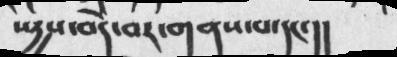སདྱས་བདེ་བར་གནས་པ་དང་།།
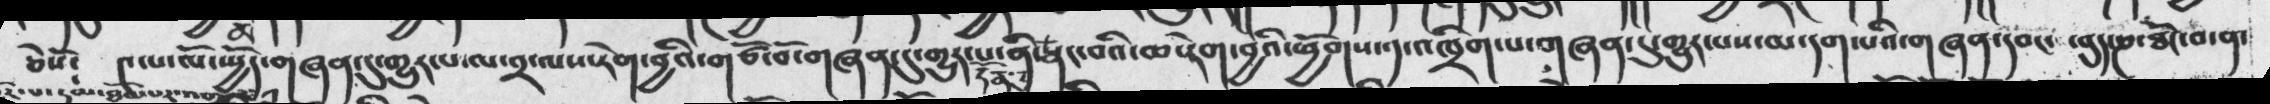ཅེསོ༴  ༤་པ་ལོ་སྤྱོད་གཞན་དུ་གྱུར་པ་ལ་༢་ལས་རེག་བྱའི་གཙོ་བོ་གཞན་དུ་གྱུར་པ་ནི་སྣང་བའི་ཆ་རེག་བྱའི་ཕྱོགས་༡་འཁྲིག་པ་གཞན་དུ་གྱུར་པས་མ་དག་པའི་གཞན་དབང་བུད་ཎ་ཐོང་བ་ན་
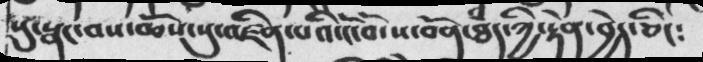སུ་སྣང་བས་ཆོས་སུ་འཛིན་པའི་ངོ་བོ་ས་བོན་ཐཾད་ཀྱི་རྟེན་བྱེད་ཅིང༴
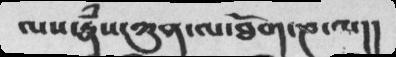ལས་རྣཾས་ཀུན་ལ་ཐོག་ཎ་ལ།།
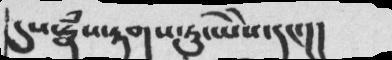དུས་རྣཾས་རྟགས་ཏུ་ཡེེས་དང་།།
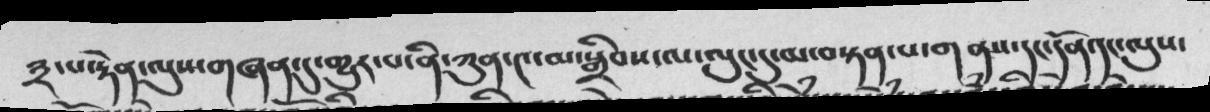༣་པ་རྟེན་ལུས་གཞན་དུ་གྱུར་པ་ནི་ཀུན་༤་མ་སྒྲིབས་ལ་ལུང་དུ་མ་བསྟན་པ་གནས་དང་དོན་དང་ལུས་
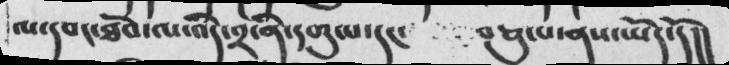ལ་དབང་ཐོབ་ལ་འདི་༢་ནི་དགུ་པ་དང་     བཅུ་པ་ནས་ཡོད་དོ།།
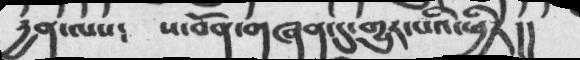དྱན་ལས༴    ས་བོན་གཞན་དུ་གྱུར་པའི་ཕྱིར།།
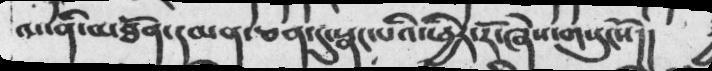ལ་ནི་མཐོན་དམན་ཅན་དུ་སྣང་པའི་ཕྱིར་རོ་ཞེསགསུངསོ།།
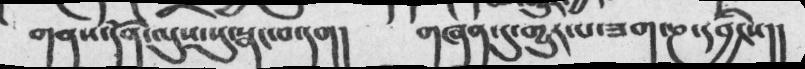གནས་དོན་ལུས་སུ་སྣང་བ་དག།   གཞན་དུ་གྱུར་པ་ཟག་ཎ་དབྱིངས།།
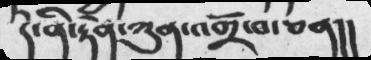དེ་ནི་རྟེན་ཀུན་འགྲོ་བ་ཅན།།
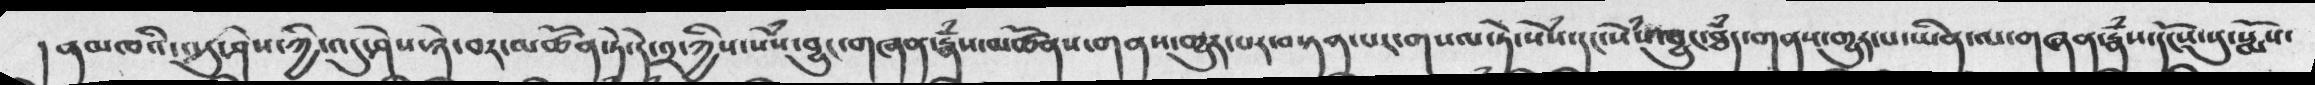།ནམཁའི་འདུ་ཤེས་ཀྱི་འདུ་ཤེས་ཉེ་བར་མཚོན་ཏེ་དེ་༢་ཀྱིས་སེཾས་བྱུང་གཞན་རྣཾས་མཚོནས་གནས་གྱུར་པར་བསྟན་པར་གསལ་ཏེ་སེཾས་དང་སེཾས་བྱུང་ཐཾད་གནས་གྱུར་པ་ཡིན་ལ་གཞན་རྣྃས་དངོས་སུ་སྨོས་
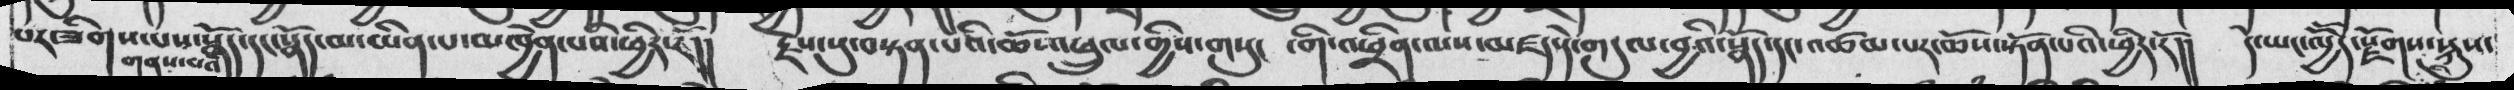པར་ཟིགས་པས་གནས་པའི་སྣོད་དང་སྣོད་མ་ཡིན་པ་མཁྱེན་པའི་ཕྱིར་རོ།།  རྗེས་སུ་བསྟན་པའི་ཆོ་འཕྲུལ་གྱིས་གསུང  ་གི་འཕྲིན་ལས་མཛད་དེ་གདུལ་བྱའི་སྣོད་དང་འཚལ་པར་ཆོས་སྟོན་པའི་ཕྱིར་རོ།།   དེ་ཡང་ལྱོོད་རྫོགས་སྐུས་
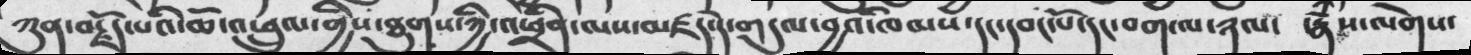ཀུན་བརྗོད་པའི་ཆོ་འཕྲུལ་གྱིས་ཐུགས་ཀྱི་འཕྲིན་ལས་མཛད་དེ་གདུལ་བྱའི་ཁམས་དང་དབང་པོ་དང་བག་ལ་ཉལ་   རྣཾས་ལེགས་
